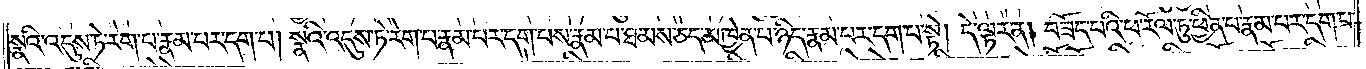སྣའི་འདུས་ཏེ་རེག་པ་རྣམ་པར་དག་པ། སྣའི་འདུས་ཏེ་རེག་པ་རྣམ་པར་དག་པས་རྣམ་པ་ཐམས་ཅད་མཁྱེན་པ་ཉིད་རྣམ་པར་དག་པ་སྟེ། དེ་ལྟར་ན། བཟོད་པའི་ཕ་རོལ་ཏུ་ཕྱིན་པ་རྣམ་པར་དག་པ་
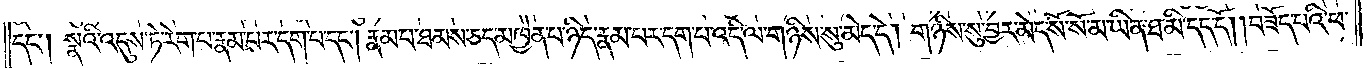དང༌། སྣའི་འདུས་ཏེ་རེག་པ་རྣམ་པར་དག་པ་དང༌། རྣམ་པ་ཐམས་ཅད་མཁྱེན་པ་ཉིད་རྣམ་པར་དག་པ་འདི་ལ་གཉིས་སུ་མེད་དེ། གཉིས་སུ་བྱར་མེད་སོ་སོ་མ་ཡིན་ཐ་མི་དད་དོ། །བཟོད་པའི་ཕ་
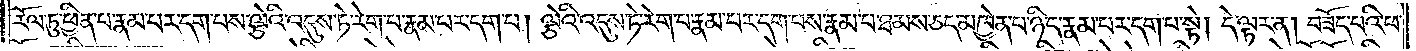རོལ་ཏུ་ཕྱིན་པ་རྣམ་པར་དག་པས་ལྕེའི་འདུས་ཏེ་རེག་པ་རྣམ་པར་དག་པ། ལྕེའི་འདུས་ཏེ་རེག་པ་རྣམ་པར་དག་པས་རྣམ་པ་ཐམས་ཅད་མཁྱེན་པ་ཉིད་རྣམ་པར་དག་པ་སྟེ། དེ་ལྟར་ན། བཟོད་པའི་ཕ་
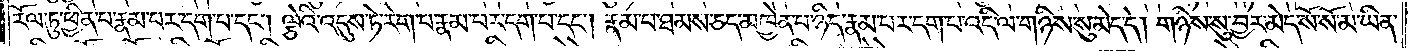རོལ་ཏུ་ཕྱིན་པ་རྣམ་པར་དག་པ་དང༌། ལྕེའི་འདུས་ཏེ་རེག་པ་རྣམ་པར་དག་པ་དང༌། རྣམ་པ་ཐམས་ཅད་མཁྱེན་པ་ཉིད་རྣམ་པར་དག་པ་འདི་ལ་གཉིས་སུ་མེད་དེ། གཉིས་སུ་བྱར་མེད་སོ་སོ་མ་ཡིན་
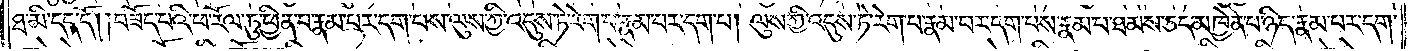ཐ་མི་དད་དོ། །བཟོད་པའི་ཕ་རོལ་ཏུ་ཕྱིན་པ་རྣམ་པར་དག་པས་ལུས་ཀྱི་འདུས་ཏེ་རེག་པ་རྣམ་པར་དག་པ། ལུས་ཀྱི་འདུས་ཏེ་རེག་པ་རྣམ་པར་དག་པས་རྣམ་པ་ཐམས་ཅད་མཁྱེན་པ་ཉིད་རྣམ་པར་དག་
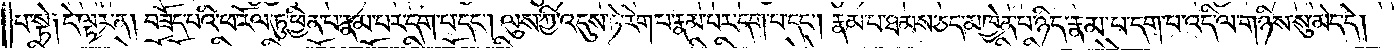པ་སྟེ༑ དེ་ལྟར་ན། བཟོད་པའི་ཕ་རོལ་ཏུ་ཕྱིན་པ་རྣམ་པར་དག་པ་དང༌། ལུས་ཀྱི་འདུས་ཏེ་རེག་པ་རྣམ་པར་དག་པ་དང༌། རྣམ་པ་ཐམས་ཅད་མཁྱེན་པ་ཉིད་རྣམ་པར་དག་པ་འདི་ལ་གཉིས་སུ་མེད་དེ།
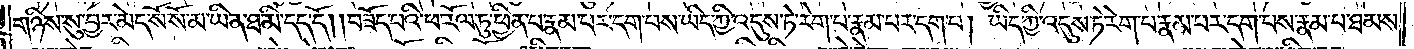གཉིས་སུ་བྱར་མེད་སོ་སོ་མ་ཡིན་ཐ་མི་དད་དོ། །བཟོད་པའི་ཕ་རོལ་ཏུ་ཕྱིན་པ་རྣམ་པར་དག་པས་ཡིད་ཀྱི་འདུས་ཏེ་རེག་པ་རྣམ་པར་དག་པ། ཡིད་ཀྱི་འདུས་ཏེ་རེག་པ་རྣམ་པར་དག་པས་རྣམ་པ་ཐམས་
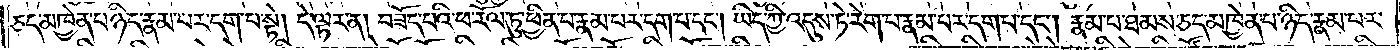ཅད་མཁྱེན་པ་ཉིད་རྣམ་པར་དག་པ་སྟེ། དེ་ལྟར་ན། བཟོད་པའི་ཕ་རོལ་ཏུ་ཕྱིན་པ་རྣམ་པར་དག་པ་དང༌། ཡིད་ཀྱི་འདུས་ཏེ་རེག་པ་རྣམ་པར་དག་པ་དང༌། རྣམ་པ་ཐམས་ཅད་མཁྱེན་པ་ཉིད་རྣམ་པར་
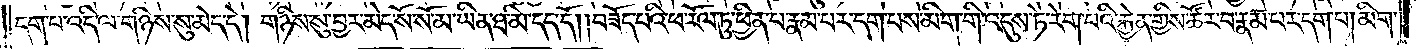དག་པ་འདི་ལ་གཉིས་སུ་མེད་དེ། གཉིས་སུ་བྱར་མེད་སོ་སོ་མ་ཡིན་ཐ་མི་དད་དོ། །བཟོད་པའི་ཕ་རོལ་ཏུ་ཕྱིན་པ་རྣམ་པར་དག་པས་མིག་གི་འདུས་ཏེ་རེག་པའི་རྐྱེན་གྱིས་ཚོར་བ་རྣམ་པར་དག་པ། མིག་
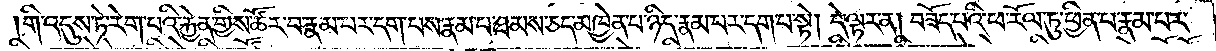གི་འདུས་ཏེ་རེག་པའི་རྐྱེན་གྱིས་ཚོར་བ་རྣམ་པར་དག་པས་རྣམ་པ་ཐམས་ཅད་མཁྱེན་པ་ཉིད་རྣམ་པར་དག་པ་སྟེ། དེ་ལྟར་ན། བཟོད་པའི་ཕ་རོལ་ཏུ་ཕྱིན་པ་རྣམ་པར་
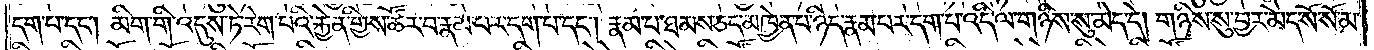དག་པ་དང༌། མིག་གི་འདུས་ཏེ་རེག་པའི་རྐྱེན་གྱིས་ཚོར་བ་རྣམ་པར་དག་པ་དང༌། རྣམ་པ་ཐམས་ཅད་མཁྱེན་པ་ཉིད་རྣམ་པར་དག་པ་འདི་ལ་གཉིས་སུ་མེད་དེ། གཉིས་སུ་བྱར་མེད་སོ་སོ་མ་
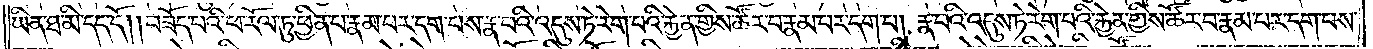ཡིན་ཐ་མི་དད་དོ། །བཟོད་པའི་ཕ་རོལ་ཏུ་ཕྱིན་པ་རྣམ་པར་དག་པས་རྣ་བའི་འདུས་ཏེ་རེག་པའི་རྐྱེན་གྱིས་ཚོར་བ་རྣམ་པར་དག་པ། རྣ་བའི་འདུས་ཏེ་རེག་པའི་རྐྱེན་གྱིས་ཚོར་བ་རྣམ་པར་དག་པས་
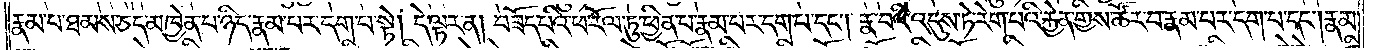རྣམ་པ་ཐམས་ཅད་མཁྱེན་པ་ཉིད་རྣམ་པར་དག་པ་སྟེ། དེ་ལྟར་ན། བཟོད་པའི་ཕ་རོལ་ཏུ་ཕྱིན་པ་རྣམ་པར་དག་པ་དང༌། རྣ་བའི་འདུས་ཏེ་རེག་པའི་རྐྱེན་གྱིས་ཚོར་བ་རྣམ་པར་དག་པ་དང༌། རྣམ་
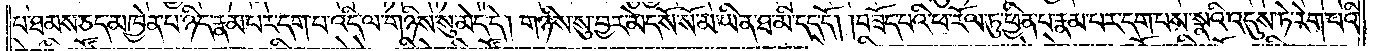པ་ཐམས་ཅད་མཁྱེན་པ་ཉིད་རྣམ་པར་དག་པ་འདི་ལ་གཉིས་སུ་མེད་དེ། གཉིས་སུ་བྱར་མེད་སོ་སོ་མ་ཡིན་ཐ་མི་དད་དོ། །བཟོད་པའི་ཕ་རོལ་ཏུ་ཕྱིན་པ་རྣམ་པར་དག་པས་སྣའི་འདུས་ཏེ་རེག་པའི་
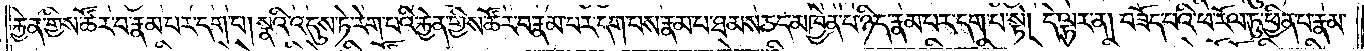རྐྱེན་གྱིས་ཚོར་བ་རྣམ་པར་དག་པ། སྣའི་འདུས་ཏེ་རེག་པའི་རྐྱེན་གྱིས་ཚོར་བ་རྣམ་པར་དག་པས་རྣམ་པ་ཐམས་ཅད་མཁྱེན་པ་ཉིད་རྣམ་པར་དག་པ་སྟེ། དེ་ལྟར་ན། བཟོད་པའི་ཕ་རོལ་ཏུ་ཕྱིན་པ་རྣམ་
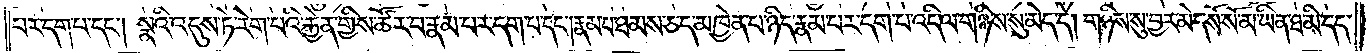པར་དག་པ་དང༌། སྣའི་འདུས་ཏེ་རེག་པའི་རྐྱེན་གྱིས་ཚོར་བ་རྣམ་པར་དག་པ་དང༌། རྣམ་པ་ཐམས་ཅད་མཁྱེན་པ་ཉིད་རྣམ་པར་དག་པ་འདི་ལ་གཉིས་སུ་མེད་དེ། གཉིས་སུ་བྱར་མེད་སོ་སོ་མ་ཡིན་ཐ་མི་དད་
